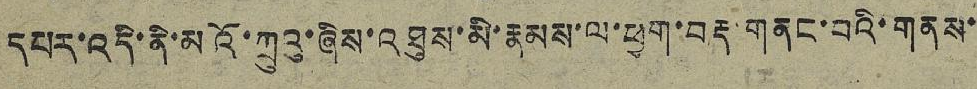དཔར་འདི་ནི་མའོ་ཀྲུའུ་ཞིས་འཐུས་མི་རྣམས་ལ་ཕྱག་བརྡ་གནང་བའི་གནས་
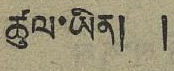ཚུལ་ཡིན། །
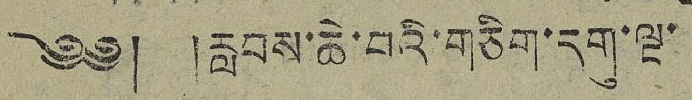༄༅། །རླབས་ཆེ་བའི་གཅིག་དགུ་ལྔ་
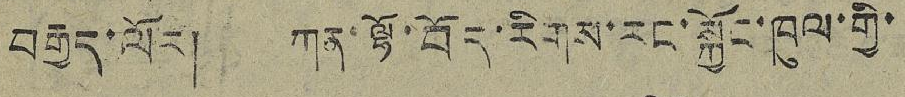བརྒྱད་ལོར། ཀན་ལྷོ་བོད་རིགས་རང་སྐྱོང་ཁུལ་གྱི་
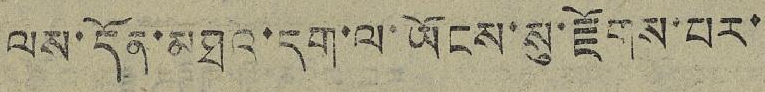ལས་དོན་མཐའ་དག་ལ་ཡོངས་སུ་རྫོགས་པར་
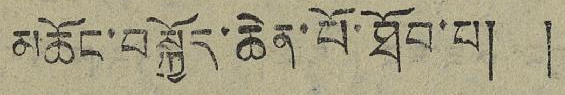མཆོང་བསྐྱོད་ཆེན་པོ་ཐོབ་པ། །
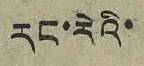རང་རེའི་
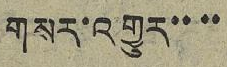གསར་འགྱུར་་་་
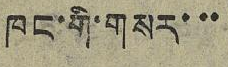ཁང་གི་གསར་་་
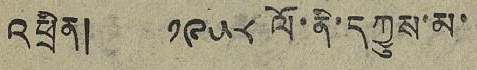འཕྲིན། ༡༩༥༨ ལོ་ནི་དཀྱུས་མ་
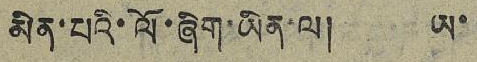མིན་པའི་ལོ་ཞིག་ཡིན་ལ། ཡ་
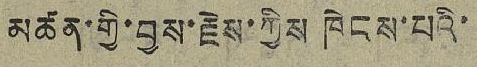མཚན་གྱི་བྱས་རྗེས་ཀྱིས ཁེངས་པའི་
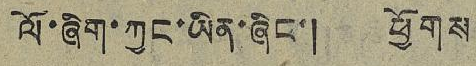ལོ་ཞིག་ཀྱང་ཡིན་ཞིང་། ཕྱོགས
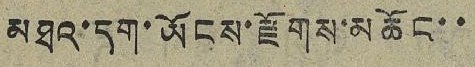མཐའ་དག་ཡོངས་རྫོགས་མཆོང་་
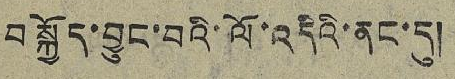བསྐྱོད་བྱུང་བའི་ལོ་འདིའི་ནང་དུ།
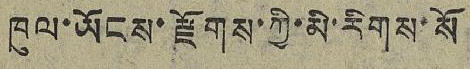ཁུལ་ཡོངས་རྫོགས་ཀྱི་མི་རིགས་སོ
